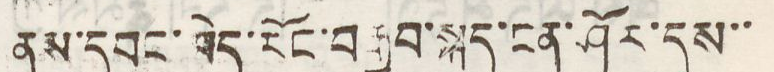ནས་དབང་བེད་རོང་བརྒྱབ་སྐད་ངན་ཤོར་དུས་་
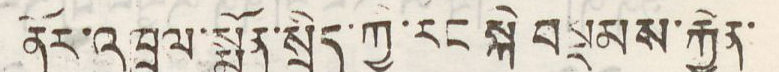ནོར་འཁྲུལ་སྨྱོན་སྲིད་ཀྱི་རང་སྐེ བསྡབས་རྐྱེན་
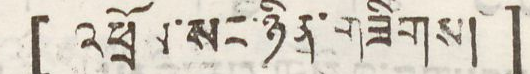[ འཕྲོས་སང་ཉིན་གཟིགས། ]
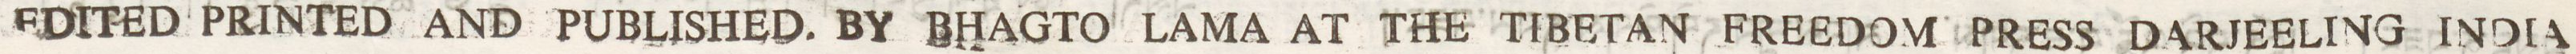EDITED PRINTED AND PUBLISHED. BY BHAGTO LAMA THE THE TIBETAN FREEDOM PRESS DARJEELING INDIA
